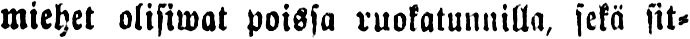miehet olisiwat poissa ruokatunnilla, sekä sit-
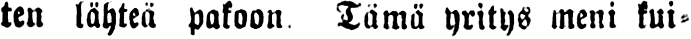ten lähteä pakoon Tämä yritys meni kui-
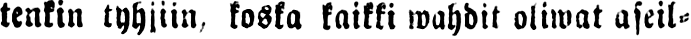tenkin tyhjiin, koska kaikki wahdit oliwat aseil-
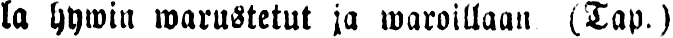la hywin warustetut ja waroillaan (Tap.)
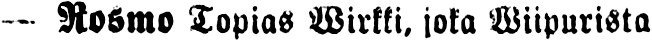— Rosmo Topias Wirkki, joka Wiipurista
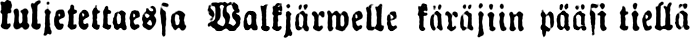kuljetettaessa Walkjärwelle käräjiin pääsi tiellä
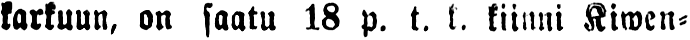karkuun, on saatu 18 p. t. k. kiinni Kiwen-
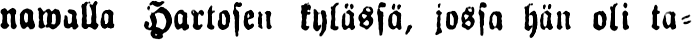nawalla Hartosen kylässä, jossa hän oli ta-
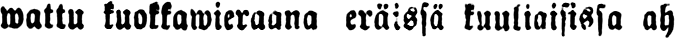wattu kuokkawieraana eräissä kuuliaisissa ah-
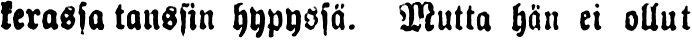kerassa tanssin hypyssä. Mutta hän ei ollut
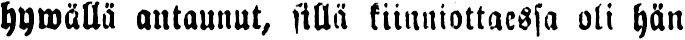hywällä antaunut, sillä kiinniottaessa oli hän
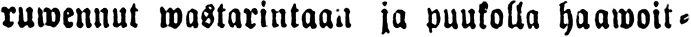ruwennut wastarintaan ja puukolla haawoit-
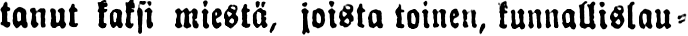tanut kaksi miestä, joista toinen, kunnallislau-
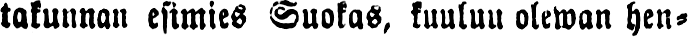takunnan esimies Suokas, kuuluu olewan hen-
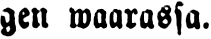gen waarassa.
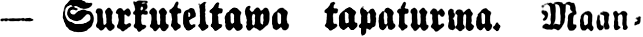— Surkuteltava tapaturma. Maan-
